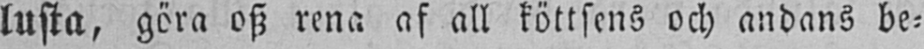lusta, göra osz rena af all köttsens och andans be-
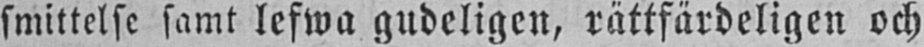smittelse samt lefwa gudeligen, rättfärdeligen och
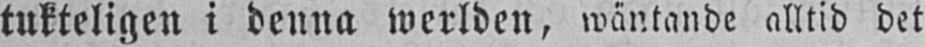tukteligen i denna werlden, wäntande alltid det
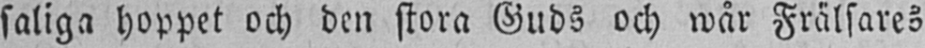saliga hoppet och den stora Guds och wår Frälsares
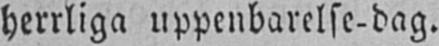herrliga uppenbarelse-dag.
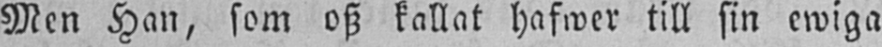Men Han, som osz kallat hafwer till sin ewiga
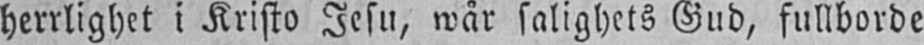herrlighet i Kristo Jesu, wår salighets Gud, fullborde
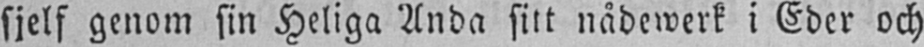sjelf genom sin Heliga Anda sitt nådewerk i Eder och
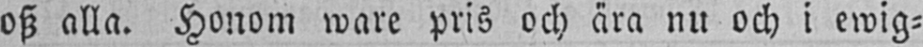osz alla. Honom ware pris och ära nu och i ewig-
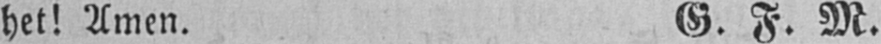het! Amen. G. F. M.
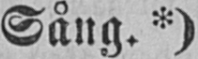Sång. *)
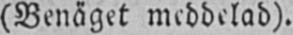(Benäget meddelad).
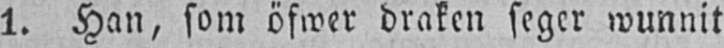1. Han, som öfwer draken seger wunnit,
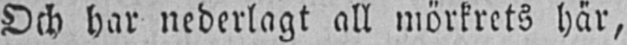Och har nederlagt all mörkrets här,
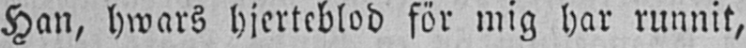Han, hwars hjerteblod för mig har runnit,
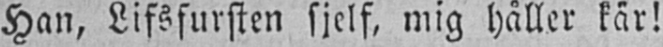Han, Lifsfursten sjelf, mig håller kär!
